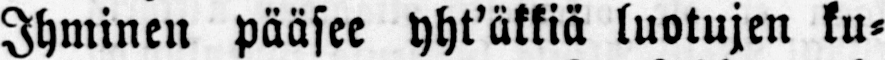Ihminen pääsee yht'äkkiä luotujen ku-
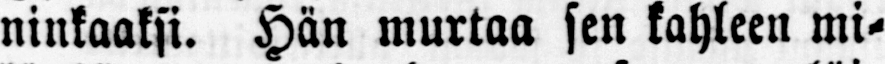ninkaaksi. Hän murtaa sen kahleen mi-
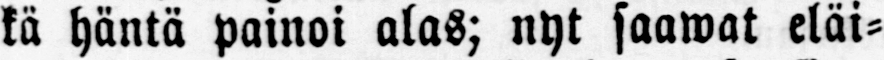kä häntä painoi alas; nyt saawat eläi-
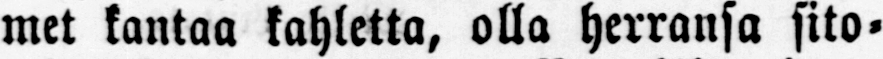met kantaa kahletta, olla herransa sito-
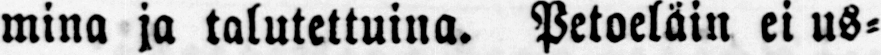mina ja talutettuina. Petoeläin ei us-
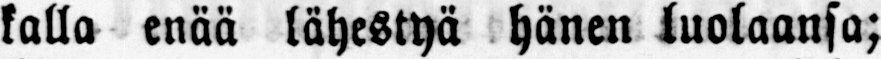kalla enää lähestyä hänen luolaansa;
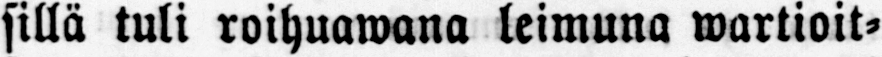sillä tuli roihuawana leimuna wartioit-
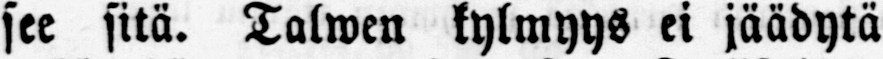see sitä. Talwen kylmyys ei jäädytä
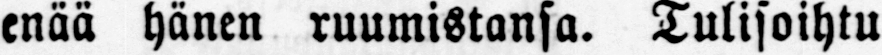enää hänen ruumistansa. Tulisoihtu
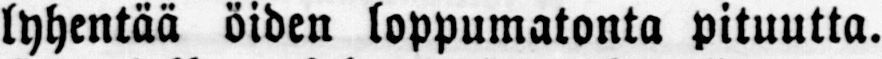lyhentää öiden loppumatonta pituutta.
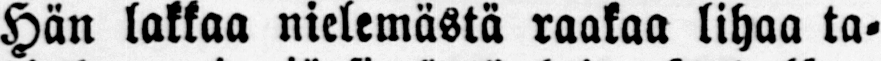Hän lakkaa nielemästä raakaa lihaa ta-
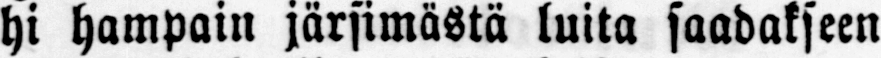hi hampain järsimästä luita saadakseen
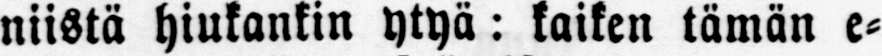niistä hiukankin ytyä: kaiken tämän e-
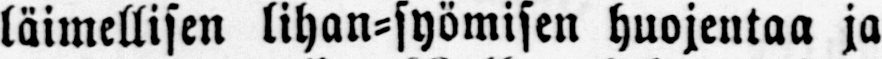läimellisen lihan-syömisen huojentaa ja
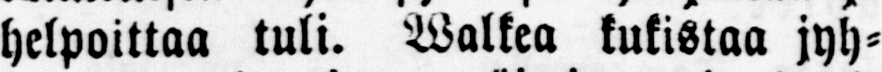helpoittaa tuli. Walkea kukistaa jyh-
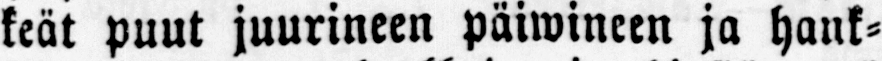keät puut juurineen päiwineen ja hank-
